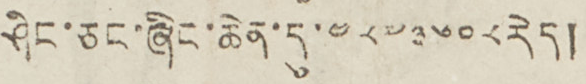ཤིང་ཅང་ཞིང་ཆེན་དུ་༤༨༧༣༦༠༨རེད།
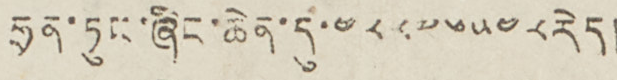ཧྲན་ཏུང་ཞིང་ཆེན་དུ་༤༨༨༧༦༥༤༨རེད།
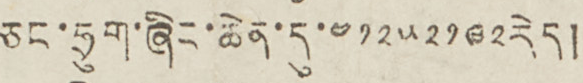ཅང་ཧྲུག་ཞིང་ཆེན་དུ་༤༡༢༥༢༡༩༢རེད།
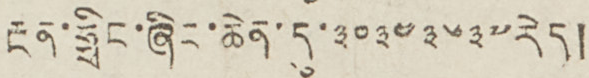རྔན་ཧྥིང་ཞིང་ཆེན་དུ་༣༠༣༤༣༦༣༧རེད།
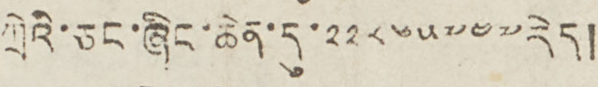ཀྲེའི་ཅང་ཞིང་ཆེན་དུ་༢༢༨༦༥༧༤༧རེད།
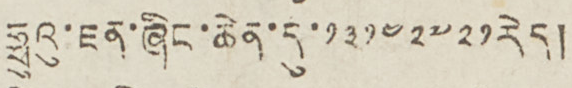ཧྥུའུ་ཇན་ཞིང་ཆེན་དུ་༡༣༡༤༢༧༢༡རེད།
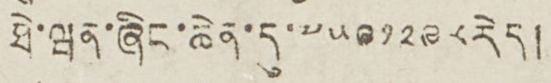ཐེ་ཝན་ཞིང་ཆེན་དུ་༧༥༩༡༢༩༨རེད།
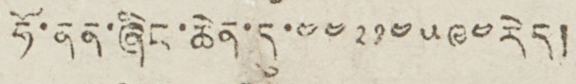ཧོ་ནན་ཞིང་ཆེན་དུ་༤༤༢༡༤༥༩༤རེད།
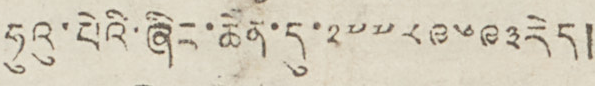ཧུའུ་པེའི་ཞིང་ཆེན་དུ་༢༧༧༨༩༦༩༣རེད།
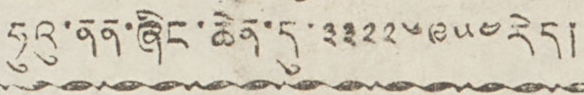ཧུའུ་ནན་ཞིང་ཆེན་དུ་༣༣༢༢༦༩༥༤རེད།
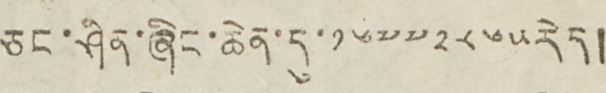ཅང་ཤིན་ཞིང་ཆེན་དུ་༡༦༧༧༢༨༦༥རེད།
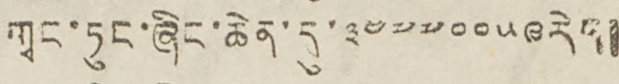ཀྭང་ཏུང་ཞིང་ཆེན་དུ་༣༤༧༧༠༠༥༩རེད།
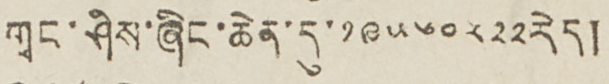ཀྭང་ཤིས་ཞིང་ཆེན་དུ་༡༩༥༦༠༨༢༢རེད།
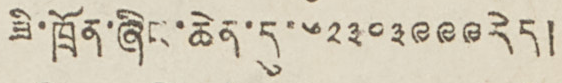ཟི་ཁྲོན་ཞིང་ཆེན་དུ་༦༢༣༠༣༩༩༩རེད།
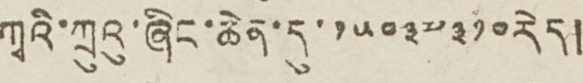ཀྭའི་ཀྲུའུ་ཞིང་ཆེན་དུ་༡༥༠༣༧༣༡༠རེད།
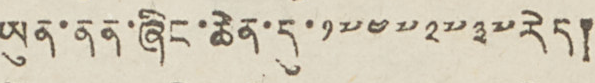ཡུན་ནན་ཞིང་ཆེན་དུ་༡༧༤༧༢༧༣༧རེད།
